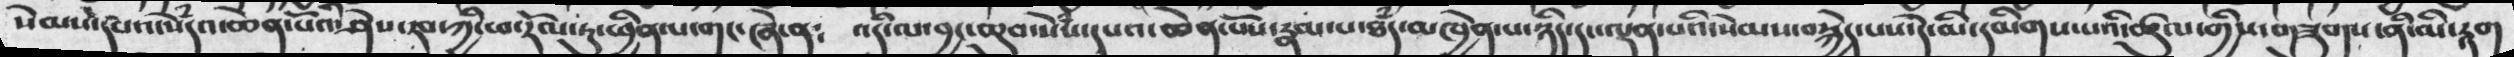སེམས་དཔའ་སེཾདའ་ཆེན་པོའི་ཤེས་རབ་ཀྱི་ཕ་རོལ་ཏུ་ཕྱིན་པ་གང་ཞེ་ན༴ འདི་ལ་བྱང་ཆུབ་སེཾས་དཔའ་ཆེན་པོས་རྣམ་པ་ཐཾད་མཁྱེན་པ་ཉིད་དང་ལྡན་པའི་སེམས་བསྐྱེད་པས་དེ་མི་དམིགས་པའི་ཚུལ་གྱིས་གཟུགས་ནི་མི་རྟག
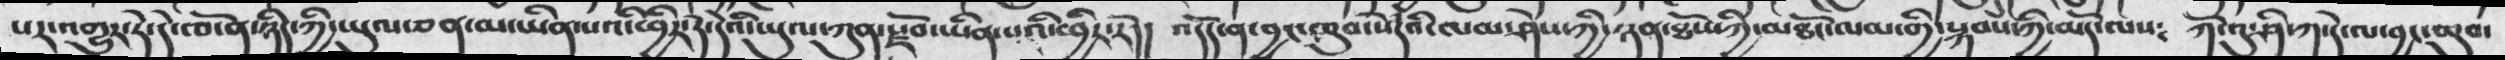པར་འགྱུར་དེ་དེ་ཁོ་ན་ཉིད་ཀྱི་ཡུལ་ཅན་མ་ཡིན་པའི་ཕྱིར་དེ་དེའི་ཡུལ་ཀུན་རྫོབ་ཡིན་པའི་ཕྱིར་རོ།།  འདོད་ན་བྱང་ཆུབ་སེཾདའི་ལམ་ཤེས་ཀྱི་ཉན་ཐོས་ཀྱི་མཐོང་ལམ་གྱི་སྐབས་ཀྱི་མདོ་ལས༴  ཀོ་འུ་ཤི་ཀ་དེ་ལ་བྱང་ཆུབ་
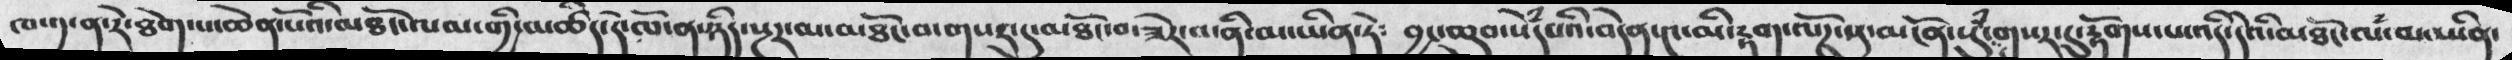ཁ་༡་ན་རེ་ཐེག་པ་ཆེན་པོའི་མཐོང་ལམ་གྱི་མཚིད་དེ་ཁོ་ན་ཉིད་ལྔར་མ་མཐོང་བ་གསར་དུ་མཐོང་བ་ཟེར་བ་ནི་མ་ཡིན་ཏེ༴  བྱང་ཆུབ་སེཾདཔའི་བདེན་༤་མི་རྟག་ལོཌ་སུ་མངོན་སུཾ་གསར་དུ་རྟོགས་པ་འདི་དེའི་མཐོང་ལཾ་མ་ཡིན་
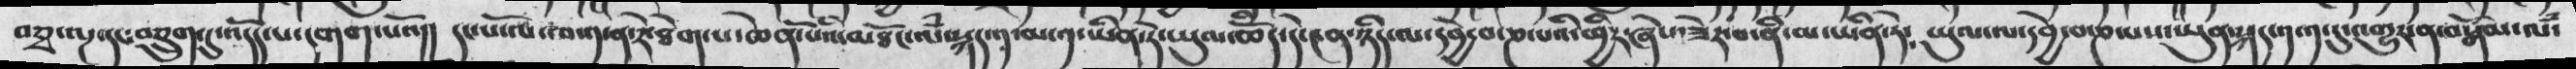བཅྭ་ལྔ་དང་བཅྲུག་དུ་འདོད་པ་དགག་པའོ།།   དང་པོ་ལ་ཁ་༡་ན་རེ་ཐེག་པ་ཆེན་པོའི་མཐོང་ལཾ་སྐད་༡་མ་༡་ཡིན་ཏེ་ཡུལ་ཆོད་དེ་༤ན་ཉིད་ལ་དབྱེ་བ་ཎ་པའི་ཕྱིར་ཞེས་ཟེར་བ་ནི་མ་ཡིན་ཏེ༴   ཡུལ་ལ་དབྱེ་བ་ཎ་པས་ཡུན་སྐད་༡་༡་དུ་འགྱུར་ན་བསྒོམ་ལཾ་
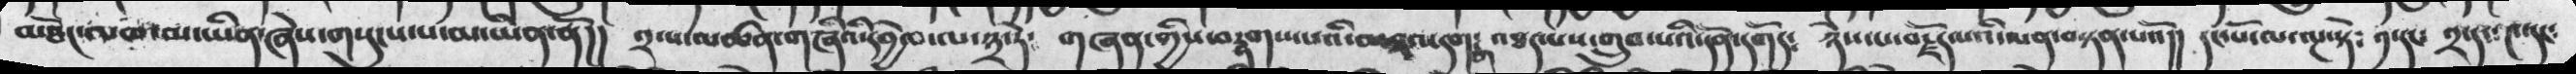མཐོང་ལམ་མ་ཡིན་ཞེས་གསུངས་པ་མ་ཡིན་ནོ།།  ༢་པ་མཚན་གཞིའི་དབྱེ་བ་ལ་༣་ཏེ༴   གཞན་གྱིས་བརྟགས་པའི་མཐའ་དགག་འཐད་པས་གྲུབ་པའི་དོན་དགོད༴  ཉེས་པ་བརྗོད་པའི་ལན་བསྟན་པའོ།།  དང་པོ་ལ་ལྔ་སྟེ༴   ༡་དང་༤་དང༴
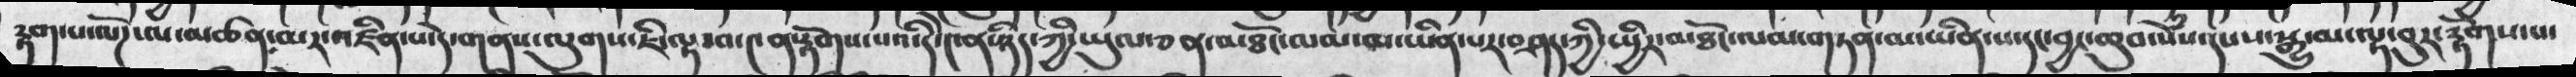རྟག་པ་ལོཌ་ལ་མཚན་མར་འཛིན་པ་དེ་གནས་ལུགས་ཇི་ལྟ་བ་༤ན་རྟོགས་པའི་༤ན་ཉིད་ཀྱི་ཡུལ་ཅན་མཐོང་ལམ་མ་ཡིན་པར་བཤད་ཀྱི་སྤྱིར་མཐོང་ལམ་གཏན་མ་ཡིན་པ་དང་བྱང་ཆུབ་སེཾས་དཔས་སྒྱུ་མ་ལྟ་བུར་རྟོགས་པ་
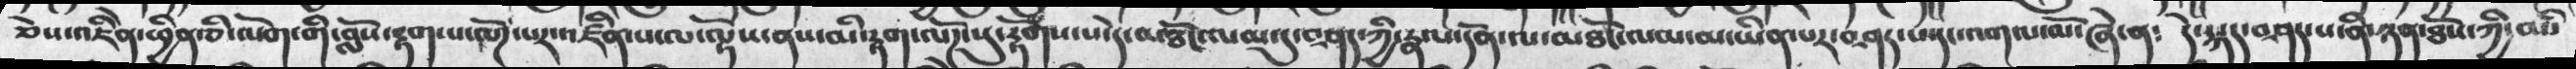ཅེས་འཇིེན་ཕྱིན་ཅི་ལོག་གི་བློས་རྟག་པ་ལོཌ་པར་འཛིན་པ་ལ་ལྟོས་ནས་མི་རྟག་ལོཌ་སུ་རྟོགས་པ་དེ་མཐོང་ལམ་དུ་བཤད་ཀྱི་རྣ་པ་དོན་ལ་མཐོང་ལམ་མ་ཡིན་པར་བཤད་པ་དང་འགལ་ལོ་ཞེ་ན༴  དེ་སྐད་བཤད་པ་ནི་ཉན་ཐོས་ཀྱི་མ་ི
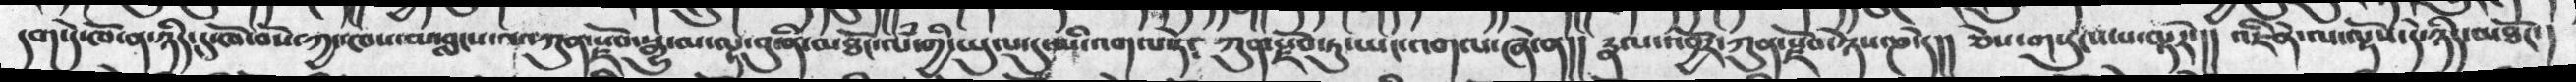དག་དེ་ཁོ་ན་ཉིད་དུ་ཁོ་བོས་ཀྱང་ཁས་མ་བླངས་ལ་ཀུན་རྫོབ་སྒྱུ་མ་ལྟ་བུ་ནི་མཐོང་ལཾ་གྱི་ཡུལ་དུ་མི་འགལ་ཏེ༴  ཀུན་རྫོབ་ཏུ་ཡང་འགལ་ཞེ་ན།།  རྣལ་འབྱོར་ཀུན་རྫོབ་ཉེས་ཎ་དེ།།  ཅེས་གསུངས་པ་ལྟར།།   འཇིེན་ལ་ལྟོས་དེ་ཉིད་མཐོང་།
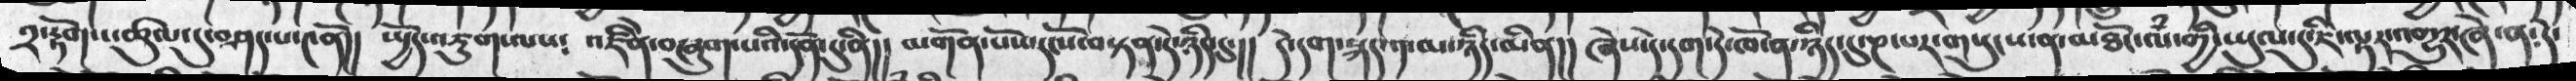༢་རྟོགས་ཚུལ་དུ་བཤད་པ་༤ནོ།།  སྤྱོད་འཇུག་ལས༴  འཇིེན་བཞུག་པའི་དོན་དུ་ནི།།   མགོན་པོས་དངོས་བསྟན་དེ་ཉིད་དུ་།།  དེ་དག་སྐད་༡་མ་ཉིད་མིན།།  ཞེས་དེ་དག་དེ་ཁོ་ན་ཉིད་དུ་ཎ་པར་གསུངས་ན་མཐོང་ལཾ་གྱི་ཡུལ་དུ་ཇི་ལྟར་འགྱུར་ཞེ་ན༴ དེ་
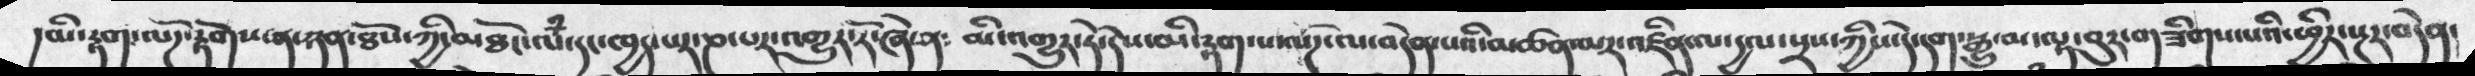།མི་རྟག་ལོཌ་རྟོགས་ན་ཉན་ཐོས་ཀྱི་མཐོང་ལཾ་དང་ཁྱད་པར་ཎ་འགྱུར་རོ་ཞེ་ན༴  མི་འགྱུར་ཏེ་དེས་མི་རྟག་པ་ལོཌ་ལ་བདེན་པའི་མཚན་མར་འཛིན་ལ་དྱལ་སྲས་ཀྱིས་དེ་དག་སྒྱུ་མ་ལྟ་བུར་གཟིགས་པའི་ཕྱིར་སྔར་བདེན་
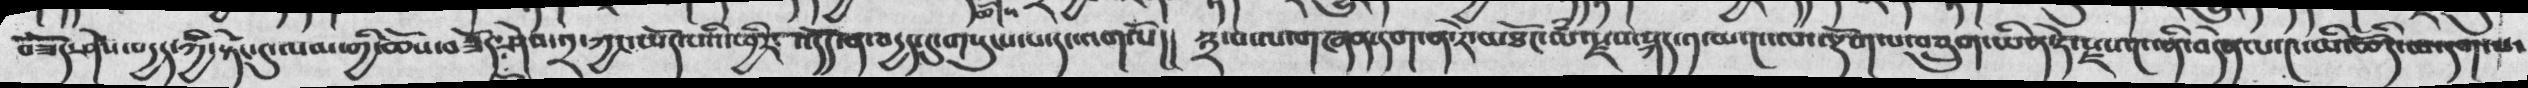བཟོད་ཤེས་བདྱད་ཀྱི་སྟེང་དུ་ལམ་གྱི་ཆོས་བཟོད་ཤེས་༢་ཀྱང་ཡོད་པའི་ཕྱིར༴   འདོད་ན་བདྱད་དུ་གསུངས་པ་དང་འགལོ།།  ༣་པ་ལ་གཞན་དག་ན་རེ་མཐོང་ལཾ་རྫས་སྐད་༡་མ་༤་ལ་ལྡོག་པ་བཅྲུག་ཡིན་ཏེ་རྫས་༤་ནི་བདེན་པ་༤་ཡི་ཆོད་ལ་དག་པ་
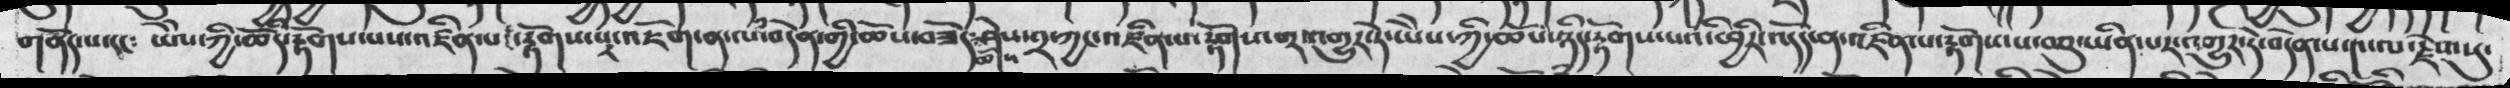གནོད་པ་དང༴  ཡེེས་ཀྱི་ཆོད་རྟོགས་པས་འཛིན་པར་རྟོགས་པར་འཇོག་ན་ལཾ་བདེན་གྱི་ཆོས་བཟོད་ཆོས་ཤེས་༢་ཀྱང་འཛིན་པ་རྟོགས་པར་འགྱུར་ཏེ་ཡེེ་ཀྱི་ཆོས་ཉིད་རྟོགས་པའི་ཕྱིར་འདོད་ན་འཛིན་པ་རྟོགས་པ་བཅུ་པར་འགྱུར་ཏེ་བདེན་པ་༤་ལ་རྗེས་སུ་
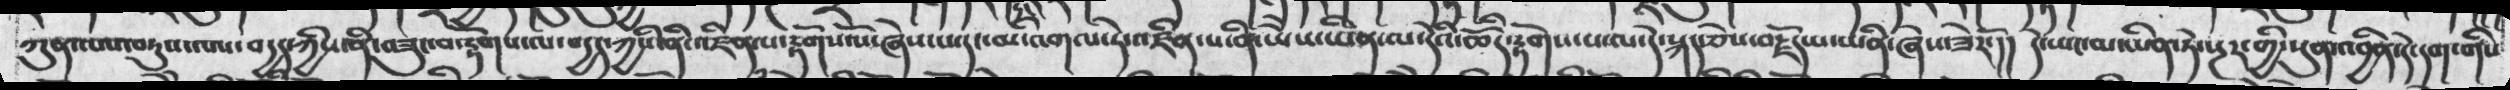ཀུན་་ལས་བཏུས་ལས་བདྱད་ཀྱིས་ནི་བཟུང་བ་རྟོགས་ལ་བདྱད་ཀྱིས་ནི་འཛིན་པ་རྟོགས་སོ་ཞེས་པ་དང་མི་འགལ་ཏེ་འཛིན་པ་ནི་ཡེེས་ཡིན་ལ་དེའི་ཆོིད་རྟོགས་པ་ལ་དེ་སྐད་ཅེས་བརྗོད་པ་ཡིན་ཞེས་ཟེརོ་།།  དེ་ཡང་མ་ཡིན་ཏེ་སྔར་གྱི་སུན་འབྱིན་དེ་དག་གིས
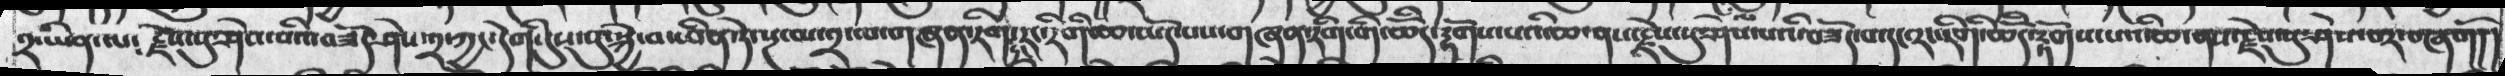༢་ཡིན་ལ༴  རྗེས་སུ་ཤེས་པའི་བཟོད་ཤེས་༢་ཀྱང་དེ་དགི་དུས་སུ་སྐྱེ་བ་ཡིན་ཏེ་སྔ་མ་༢་ལ་གཞན་རིག་དང་རང་རིགི་ཆ་ཡོད་པས་གཞན་རིག་གི་ཆོིད་རྟོགས་པའི་ཆ་ནས་རྗེས་སུ་ཤེས་པའི་བཟོད་པ་དང་རང་རིགི་ཆོིད་རྟོགས་པའི་ཆ་ནས་རྗེས་སུ་ཤེས་པར་བཞགོ།།
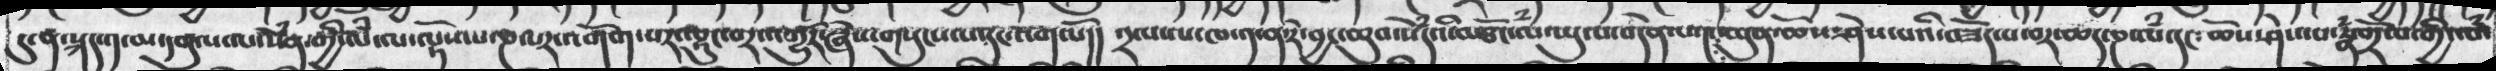དུ་ན་སྐད་༡་མ་དགུ་པ་ལ་སེཾན་གྱི་ལཾ་ལ་ལྟོས་པ་ཎ་པར་འགོག་པར་ལྷུང་བར་འགྱུར་ཞེས་གསུངས་པ་དང་འགལོ།།  ༢་པ་ལ་ཁ་༡་ན་རེ་བྱང་ཆུབ་སེཾདའི་མཐོང་ལཾ་ཡུལ་བདེན་པ་དང་མུན་ཆོས་ཤེས་པའི་བཟོད་པ་བར་ཆད་ཎ་ལཾ་དང༴ཆོས་ཤེས་པ་རྣཾ་གྲོལ་གྱི་ལཾ་
